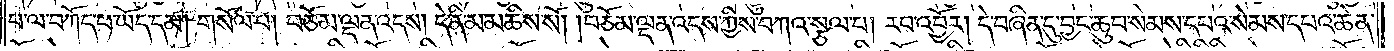པ་ལ་བཀོད་པ་ཡོད་དམ། གསོལ་པ། བཅོམ་ལྡན་འདས། དེ་ནི་མ་མཆིས་སོ། །བཅོམ་ལྡན་འདས་ཀྱིས་བཀའ་སྩལ་པ། རབ་འབྱོར། དེ་བཞིན་དུ་བྱང་ཆུབ་སེམས་དཔའ་སེམས་དཔའ་ཆེན་
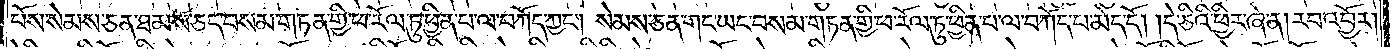པོས་སེམས་ཅན་ཐམས་ཅད་བསམ་གཏན་གྱི་ཕ་རོལ་ཏུ་ཕྱིན་པ་ལ་བཀོད་ཀྱང༌། སེམས་ཅན་གང་ཡང་བསམ་གཏན་གྱི་ཕ་རོལ་ཏུ་ཕྱིན་པ་ལ་བཀོད་པ་མེད་དོ། །དེ་ཅིའི་ཕྱིར་ཞེ་ན། རབ་འབྱོར།
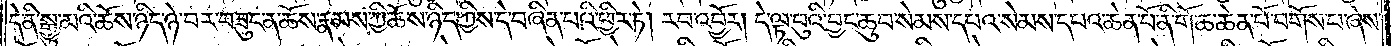དེ་ནི་སྒྱུ་མའི་ཆོས་ཉིད་ཉེ་བར་བཟུང་ན་ཆོས་རྣམས་ཀྱི་ཆོས་ཉིད་ཀྱིས་དེ་བཞིན་པའི་ཕྱིར་ཏེ། རབ་འབྱོར། དེ་ལྟ་བུའི་བྱང་ཆུབ་སེམས་དཔའ་སེམས་དཔའ་ཆེན་པོ་ནི་གོ་ཆ་ཆེན་པོ་བགོས་པ་ཞེས་
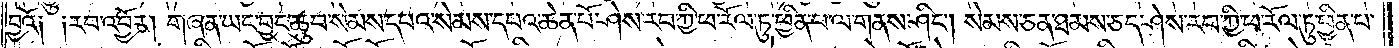བྱའོ། །རབ་འབྱོར། གཞན་ཡང་བྱང་ཆུབ་སེམས་དཔའ་སེམས་དཔའ་ཆེན་པོ་ཤེས་རབ་ཀྱི་ཕ་རོལ་ཏུ་ཕྱིན་པ་ལ་གནས་ཤིང༌། སེམས་ཅན་ཐམས་ཅད་ཤེས་རབ་ཀྱི་ཕ་རོལ་ཏུ་ཕྱིན་པ་
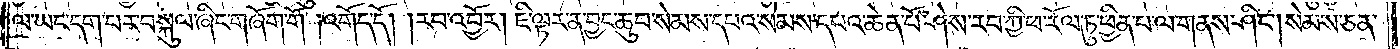ལ་ཡང་དག་པར་བསྐུལ་ཞིང་གཞོག་གོ །འགོད་དོ། །རབ་འབྱོར། ཇི་ལྟར་ན་བྱང་ཆུབ་སེམས་དཔའ་སེམས་དཔའ་ཆེན་པོ་ཤེས་རབ་ཀྱི་ཕ་རོལ་ཏུ་ཕྱིན་པ་ལ་གནས་ཤིང༌། སེམས་ཅན་
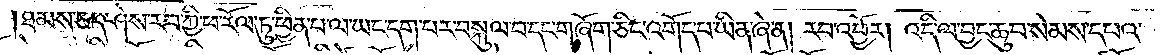ཐམས་ཅད་ཤེས་རབ་ཀྱི་ཕ་རོལ་ཏུ་ཕྱིན་པ་ལ་ཡང་དག་པར་བསྐུལ་བ་དང་གཞོག་ཅིང་འགོད་པ་ཡིན་ཞེ་ན། རབ་འབྱོར། འདི་ལ་བྱང་ཆུབ་སེམས་དཔའ་
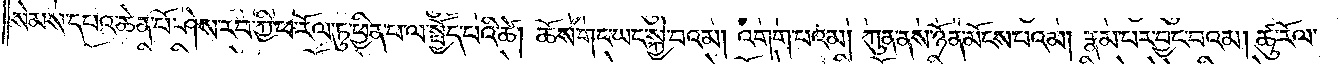སེམས་དཔའ་ཆེན་པོ་ཤེས་རབ་ཀྱི་ཕ་རོལ་ཏུ་ཕྱིན་པ་ལ་སྤྱོད་པའི་ཚེ། ཆོས་གང་ཡང་སྐྱེ་བ་འམ། འགག་པ་འམ། ཀུན་ནས་ཉོན་མོངས་པའམ། རྣམ་པར་བྱང་བའམ། ཚུ་རོལ་
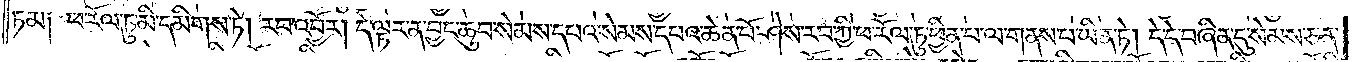ཏམ། ཕ་རོལ་ཏུ་མི་དམིགས་ཏེ། རབ་འབྱོར། དེ་ལྟར་ན་བྱང་ཆུབ་སེམས་དཔའ་སེམས་དཔའ་ཆེན་པོ་ཤེས་རབ་ཀྱི་ཕ་རོལ་ཏུ་ཕྱིན་པ་ལ་གནས་པ་ཡིན་ཏེ། དེ་དེ་བཞིན་དུ་སེམས་ཅན་
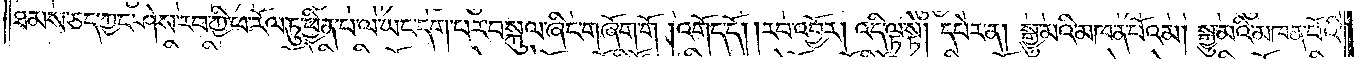ཐམས་ཅད་ཀྱང་ཤེས་རབ་ཀྱི་ཕ་རོལ་ཏུ་ཕྱིན་པ་ལ་ཡང་དག་པར་བསྐུལ་ཞིང་གཞོག་གོ །འགོད་དོ། །རབ་འབྱོར། འདི་ལྟ་སྟེ། དཔེར་ན། སྒྱུ་མའི་མཁན་པོ་འམ། སྒྱུ་མའི་མཁན་པོའི་
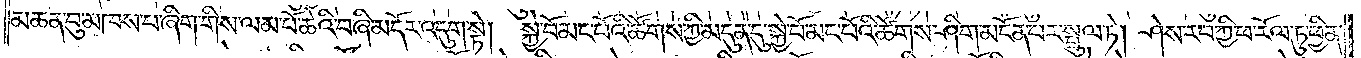མཆན་བུ་མཁས་པ་ཞིག་གིས་ལམ་པོ་ཆེའི་བཞི་མདོར་འདུག་སྟེ། སྐྱེ་བོ་མང་པོའི་ཚོགས་ཀྱི་མདུན་དུ་སྐྱེ་བོ་མང་པོའི་ཚོགས་ཤིག་མངོན་པར་སྤྲུལ་ཏེ། ཤེས་རབ་ཀྱི་ཕ་རོལ་ཏུ་ཕྱིན་
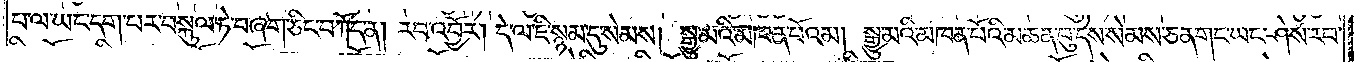པ་ལ་ཡང་དག་པར་བསྐུལ་ཏེ་བཞག་ཅིང་བཀོད་ན། རབ་འབྱོར། དེ་ལ་ཇི་སྙམ་དུ་སེམས། སྒྱུ་མའི་མཁན་པོ་འམ། སྒྱུ་མའི་མཁན་པོའི་མཆན་བུ་དེས་སེམས་ཅན་གང་ཡང་ཤེས་རབ་
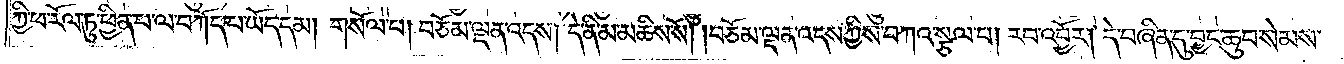ཀྱི་ཕ་རོལ་ཏུ་ཕྱིན་པ་ལ་བཀོད་པ་ཡོད་དམ། གསོལ་པ། བཅོམ་ལྡན་འདས། དེ་ནི་མ་མཆིས་སོ། །བཅོམ་ལྡན་འདས་ཀྱིས་བཀའ་སྩལ་པ། རབ་འབྱོར། དེ་བཞིན་དུ་བྱང་ཆུབ་སེམས་
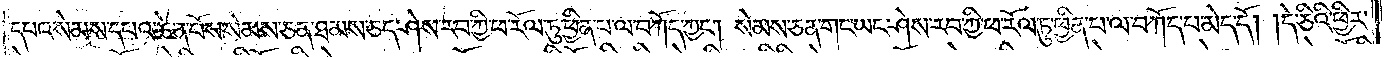དཔའ་སེམས་དཔའ་ཆེན་པོས་སེམས་ཅན་ཐམས་ཅད་ཤེས་རབ་ཀྱི་ཕ་རོལ་ཏུ་ཕྱིན་པ་ལ་བཀོད་ཀྱང༌། སེམས་ཅན་གང་ཡང་ཤེས་རབ་ཀྱི་ཕ་རོལ་ཏུ་ཕྱིན་པ་ལ་བཀོད་པ་མེད་དོ། །དེ་ཅིའི་ཕྱིར་
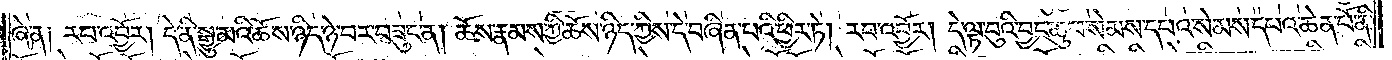ཞེ་ན། རབ་འབྱོར། དེ་ནི་སྒྱུ་མའི་ཆོས་ཉིད་ཉེ་བར་བཟུང་ན། ཆོས་རྣམས་ཀྱི་ཆོས་ཉིད་ཀྱིས་དེ་བཞིན་པའི་ཕྱིར་ཏེ། རབ་འབྱོར། དེ་ལྟ་བུའི་བྱང་ཆུབ་སེམས་དཔའ་སེམས་དཔའ་ཆེན་པོ་ནི་
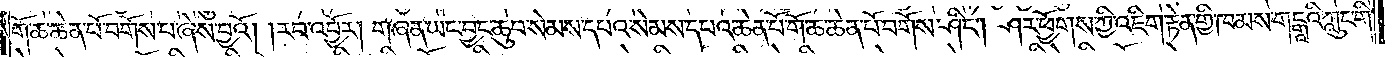གོ་ཆ་ཆེན་པོ་བགོས་པ་ཞེས་བྱའོ། །རབ་འབྱོར། གཞན་ཡང་བྱང་ཆུབ་སེམས་དཔའ་སེམས་དཔའ་ཆེན་པོ་གོ་ཆ་ཆེན་པོ་བགོས་ཤིང༌། ཤར་ཕྱོགས་ཀྱི་འཇིག་རྟེན་གྱི་ཁམས་གངྒཱའི་ཀླུང་གི་
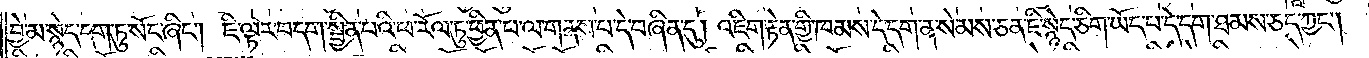བྱེ་མ་སྙེད་དག་ཏུ་སོང་ཞིང༌། ཇི་ལྟར་བདག་སྦྱིན་པའི་ཕ་རོལ་ཏུ་ཕྱིན་པ་ལ་གནས་པ་དེ་བཞིན་དུ། འཇིག་རྟེན་གྱི་ཁམས་དེ་དག་ན་སེམས་ཅན་ཇི་སྙེད་ཅིག་ཡོད་པ་དེ་དག་ཐམས་ཅད་ཀྱང༌།
